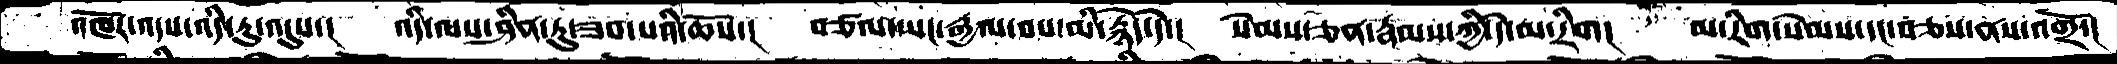འཁོར་འདས་འདི་རུ་འདུས་།   འདི་ལས་ཤིན་ཏུ་ཟབ་པའི་ཆོས་།   བཙལ་ཡང་རྒྱལ་བས་མི་རྙེད་དེ་།   སེམས་ཅན་རྣམས་ཀྱི་དེ་མ་རིག།    མ་རིག་སེམས་དང་བཅས་ནས་འགྲོ་།
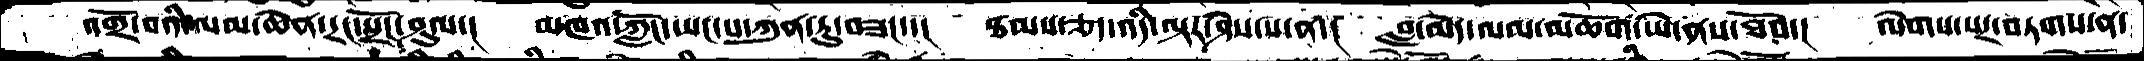འགྲོ་བའི་ལམ་ཆེན་དྲང་སྲོང་ཤུལ་་   མཁའ་ཀློོང་ཡང་པ་ཀུན་ཏུ་བཟང་་།   ཐམས་ཅད་འདི་ལྟར་ཤེས་པ་ན་།   བླ་མེད་ལམ་མཆོག་ཡེ་ནས་ཐོབ་།    ལེགས་པར་བཏགས་ན་
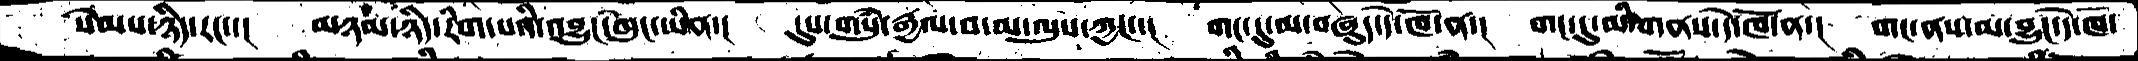སེམས་ཉིད་རང་་།    མཉམ་ཉིད་རིག་པའི་འབྱུང་ཁུང་ཡིན་།    དུས་གསུཾ་རྒྱལ་བ་མ་ལུས་ཀྱང་་།   གང་དུ་མ་བཞུད་དེ་ཁོ་ན་།   གང་དུ་མི་གནས་དེ་ཁོ་ན་།   གང་ནས་མ་བྱུང་དེ་ཁོ་
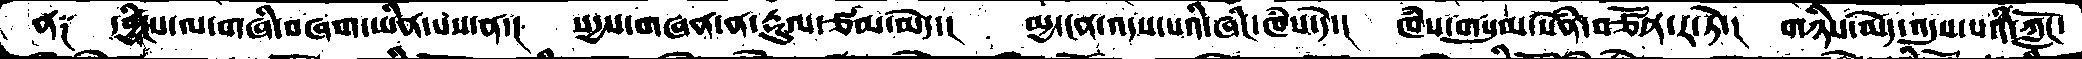ན༑  དབྱིངས་ལ་གཞི་བཞག་ཡིན་པས་ན་།  སདྱས་གཞན་ན་རྡུལ་ཙམ་མེད་།  མྱ་ངན་འདས་པའི་ཞིང་ཁཾས་དེ་།  ཁཾས་གསུམ་སེཾན་བཙོན་ར་ཏེ་།  གཉིས་མེད་འདུས་པའི་ཀློང་
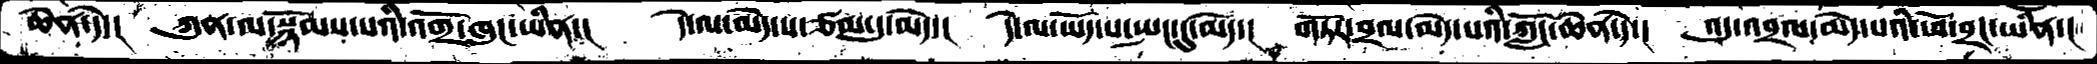ཆེན་དེ་།  ཀུན་ལ་སྙོམས་པའི་འགྲོ་ཁུང་ཡིན་།  དེ་ལ་མེད་པ་ཙམ་དུ་མེད་།  དེ་ལ་ཡོད་པ་སྤང་དུ་མེད་།  གཏོར་བྲལ་མེད་པའི་ཀློང་ཆེན་དེ་།  འདུ་འབྲལ་མེད་པའི་ཕོ་བྲང་ཡིན་།
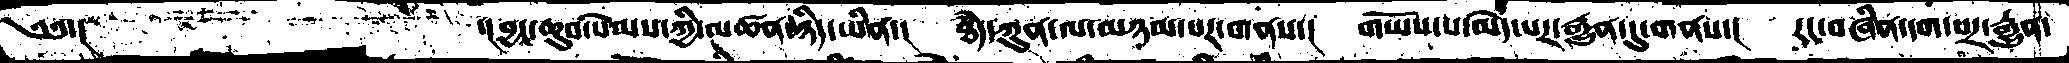༄༅་།         ་།བྱ་ཆུབ་སེམས་ཀྱི་མཚན་ཉིད་ཡིན་།  ཐཾད་ཀུན་ལ་མཉམ་པར་གནས་།  གཡོས་པ་མེད་པར་རྒྱུན་དུ་གནས་།  རང་བཞིན་དག་པར་རྒྱུན་
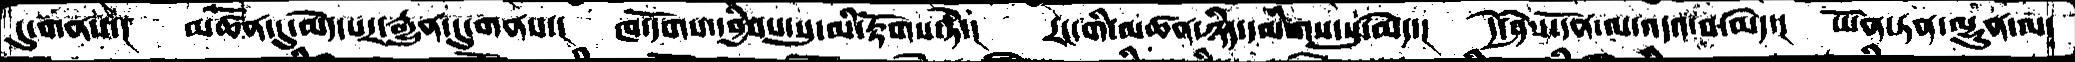དུ་གནས་།  མཚོན་དུ་མེད་པར་རྒྱུན་དུ་གནས་།  ཁ་དོགས་དབྱིབས་སུ་མི་རྟོགས་ཏེ་།  རང་གི་མཚན་ཉིད་དམིགས་སུ་མེད་།  དེ་ཤེས་དོན་ལ་འདའ་བ་མེད་།  ཡོན་ཏན་ལྷུན་ལ་
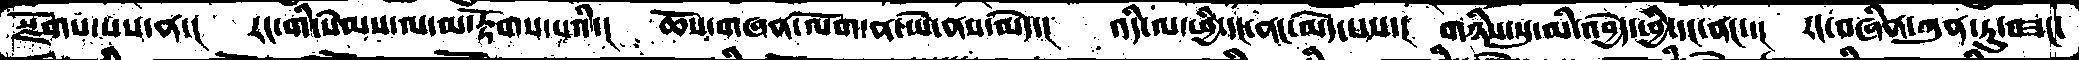སྫོགས་པས་ན་།  རང་གི་སེམས་ལ་མ་རྟོགས་པའི་།  ཆོས་གཞན་ལོག་ན་ཡེ་ནས་མེད་།  འདི་ལ་ཕྱི་དང་ནང་མེད་པས་།  གཉིས་སུ་མི་འབྱེད་ཕྱི་དང་ནང་་།  རང་བཞིན་ཀུན་དུ་བཟང་
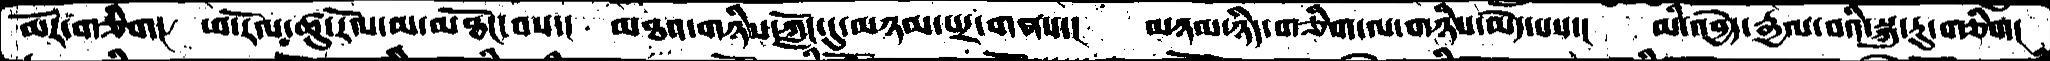མོར་གཅིག་།  ཕ་རོལ་ཚུ་རོལ་མ་མཐོང་བས་།  མཐའ་གཉིས་ཀློང་དུ་མཉམ་པར་གནས་།  མཉམ་ཉིད་གཅིག་ལ་གཉིས་མེད་པས་།  མི་འབྱེད་རྒྱལ་བའི་སྐུ་རུ་གཅིག།
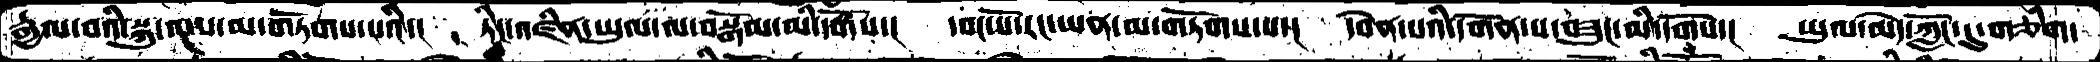རྒྱལ་བའི་སྐུ་ལས་མ་གཏོགས་པའི་།  ཏིང་འཛིན་ཡུལ་ལ་བསྒོམ་མི་དགོས་།  དབང་པོ་རང་ཡན་མ་གཏོགས་པ་།  དབེན་པའི་དགོན་པ་བཟུང་མི་དགོས་།  ཡུལ་མེད་ཀློང་དུ་གཅིག་
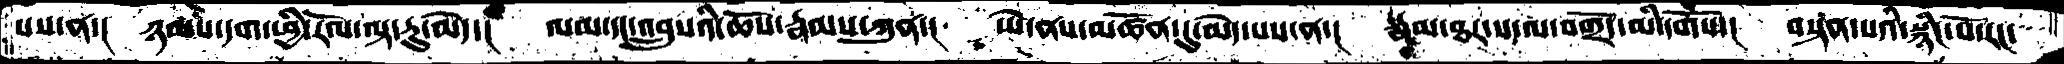པས་ན་། ཉམས་དག་ཕྱི་རོལ་ལྟ་རུ་མེད་།  ལམ་དང་འབྲུསའི་ཆོས་རྣམས་ཀུན་།  ཡེ་ནས་མཚོན་དུ་མེད་པས་ན་།  སྣམ་ཐར་ས་ལ་བགྲོད་མི་དགོས་།  བསྟན་པའི་སྙིང་པོ་རང་
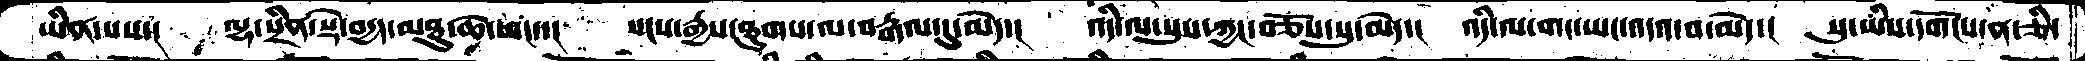ཡིན་པས་།  ལྷ་སྲིན་སྡེ་བདྱད་མཐུ་ཆེ་ཡང་་།  སངས་རྒྱས་ཐུགས་ལ་བརྒལ་དུ་མེད་།  འདི་ལ་སུས་ཀྱང་བཅོས་སུ་མེད་།  འདི་ལ་གང་ཡང་འདའ་བ་མེད་།  སུ་ཡིས་དགོངས་ན་ཅི་
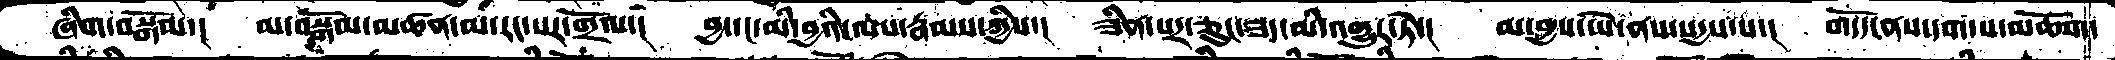ཞིག་བསྒོམ་།  མ་བསྒོམ་མཚན་མ་རང་སར་གྲོལ་།  བྱ་དང་མི་བྱའི་ལས་རྣམས་ཀྱིས་།  ཟིན་པར་ཅུང་ཟད་མི་འགྱུར་ཏེ་།  མ་བྱས་ཡེ་ནས་སདྱས་པ་།  གདོད་ནས་དག་པ་མཆོག་
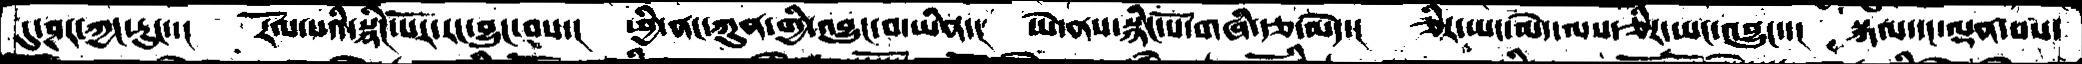དུ་ཤར་ཀྱང་རུང་་།  རོལ་པའི་སྙིང་པོར་རང་བྱུང་བས་།  ཕྱི་ནང་ཀུན་གྱི་འབྱུང་བ་ཡིན་།  ཡེ་ནས་སྙིང་པོ་གཞི་རྩ་མེད་།  ཅིར་ཡང་མེད་ལས་ཅིར་ཡང་འབྱུང་་།  སྐལ་དང་ལྡན་པས་
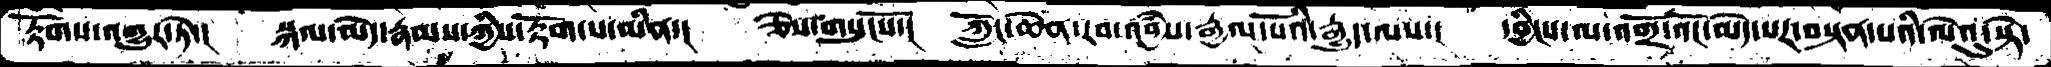རྟོགས་འགྱུར་ཏེ་།  སྐལ་མེད་རྣམས་ཀྱིས་རྟོག་པ་མིན་།  ཅེས་གསུངསོ་།  ཀློང་ཆེན་་རབ་འབྱཾས་རྒྱལ་པོའི་རྒྱུད་ལས་།  དབྱིངས་ལ་འགྲོ་འོང་མེད་པར་བསྟན་པའི་ལེའུ་སྟེ་
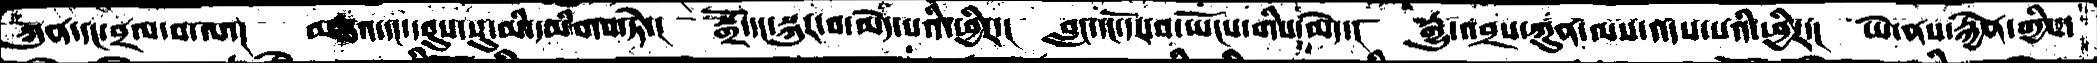ཀུན་དང་བྲལ་བ་ལ་།  མཐའ་དང་དབུས་སུ་མི་དམིགས་ཏེ་།  སྒྲོ་དང་སྐུར་བ་མེད་པའི་ཕྱིར་།  བླང་དང་དོར་བ་ཡོངས་གིས་མེད་།  རྒྱུ་འབྲས་ཀུན་ལས་འདས་པའི་ཕྱིར་། ཡེ་ནས་རྐྱེན་གྱིས་
